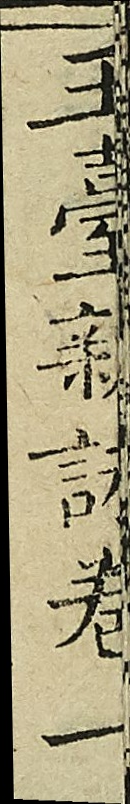玉臺新詠卷一
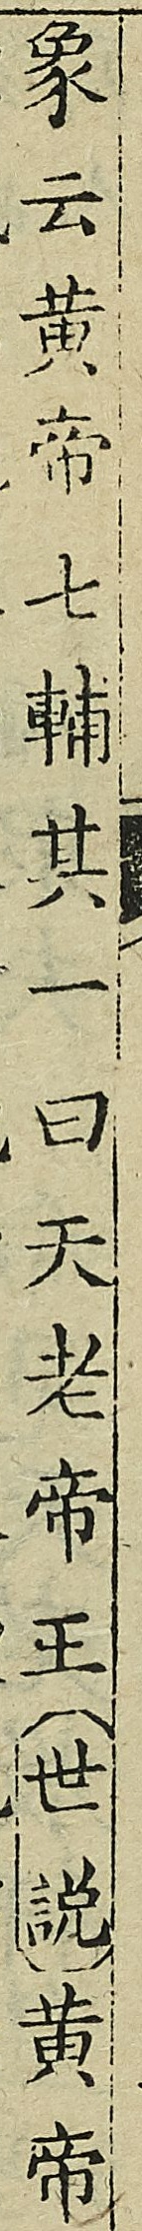象云黃帝七輔其一曰天老帝王（世說）黃帝
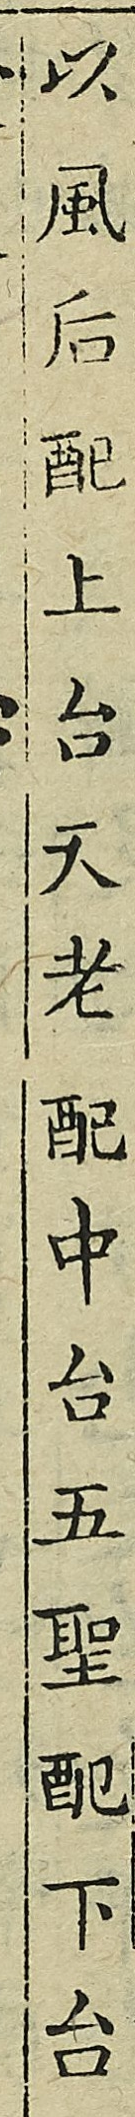以風后配上台天老配中台五聖配下台
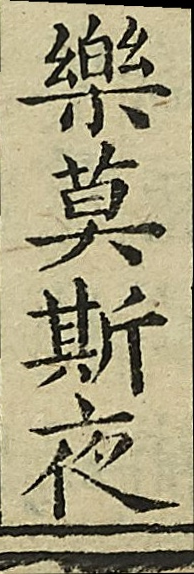樂莫斯夜
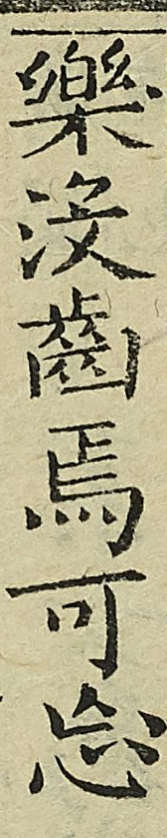樂沒齒焉可忘
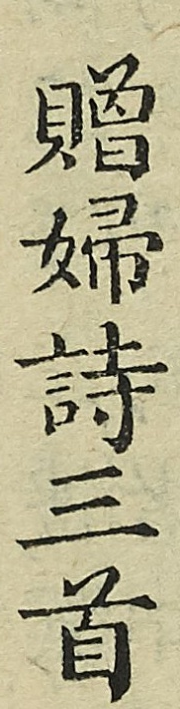贈婦詩三首
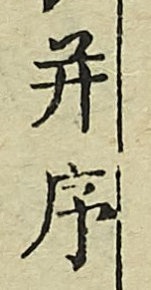並序
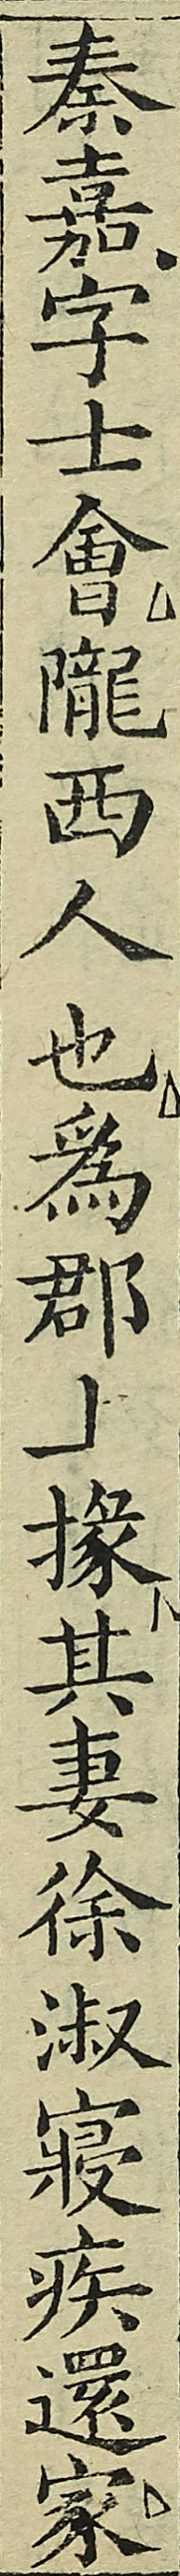秦嘉字士會隴西人也為郡上掾其妻徐淑寢疾還家
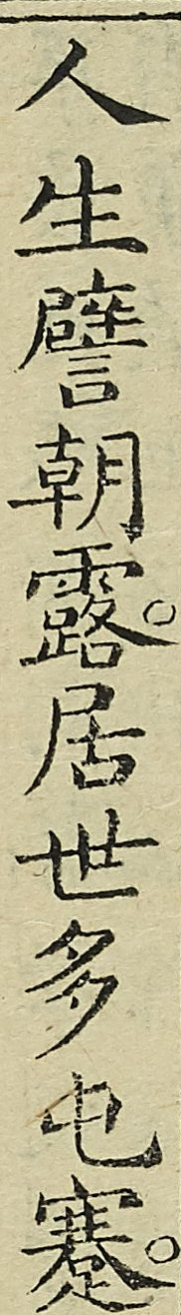人生譬朝露居世多屯蹇
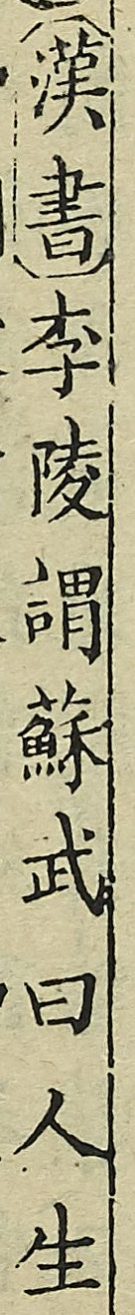（漢書）李陵謂蘇武曰人生
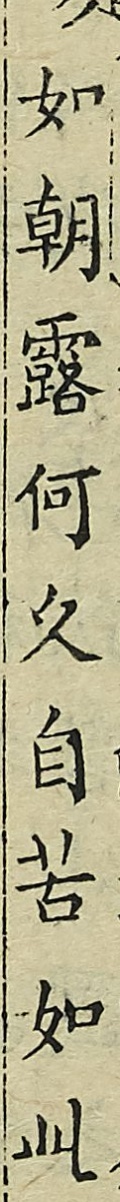如朝露何久自苦如此
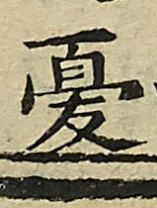憂
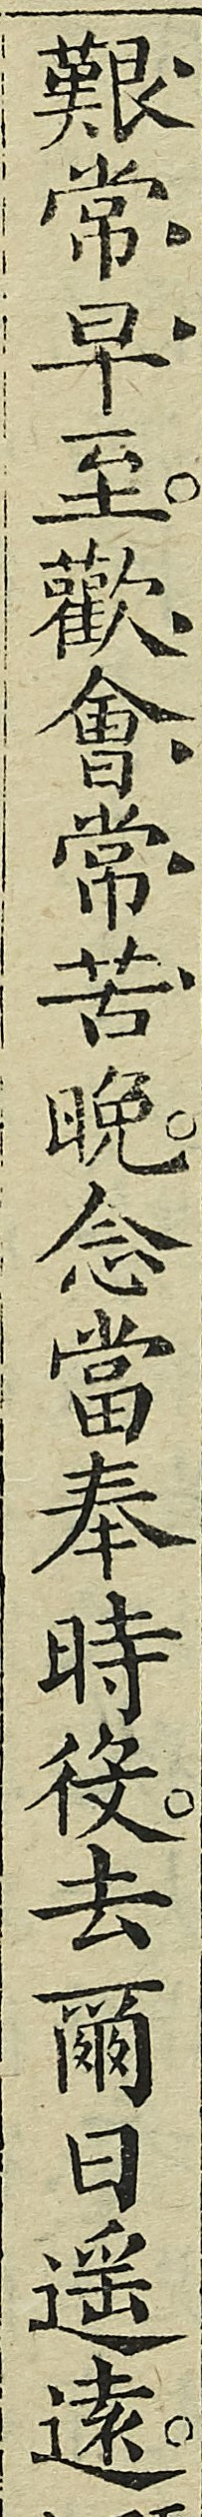艱常早至歡會常苦晚念當奉時役去爾日遙遠
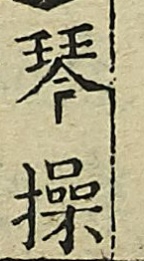琴操
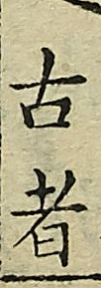古者
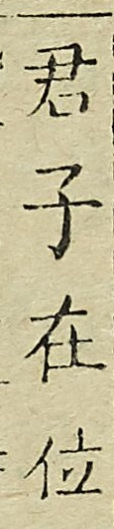君子在位
